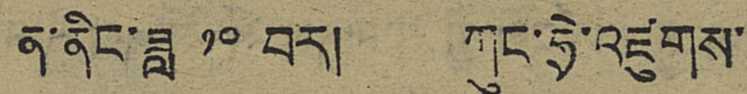ན་ནིང་ཟླ ༡༠ བར། ཀུང་ཧྲེ་འཛུགས་
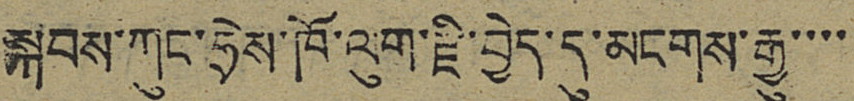སྐབས་ཀུང་ཧྲེས་ཁོ་ལུག་རྫི་བྱེད་དུ་མངགས་རྒྱུ་་་་་
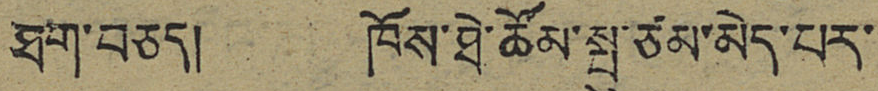ཐག་བཅད། ཁོས་ཐེ་ཚོམ་སྤུ་ཙམ་མེད་པར་
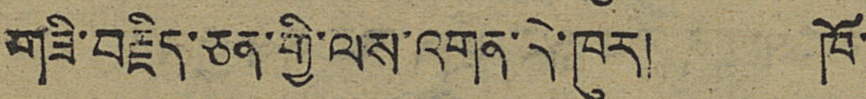གཟི་བརྗིད་ཅན་གྱི་ལས་འགན་དེ་ཁུར། ཁོ་
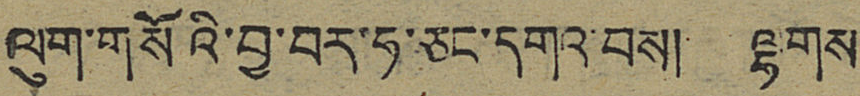ལུག་གསོའི་བྱ་བར་ཧ་ཅང་དགའ་བས། ལྷགས་
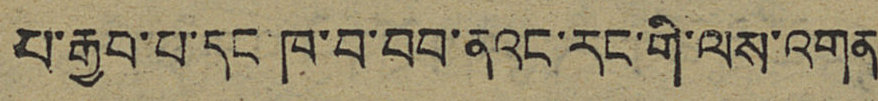པ་རྒྱབ་པ་དང་ཁ་བ་བབ་ནའང་རང་གི་ལས་འགན
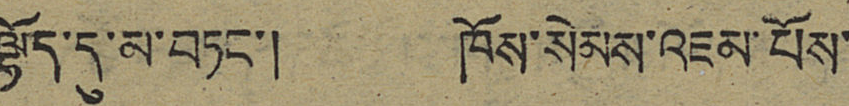ལྷོད་དུ་མ་བཏང་། ཁོས་སེམས་འཇམ་པོས་
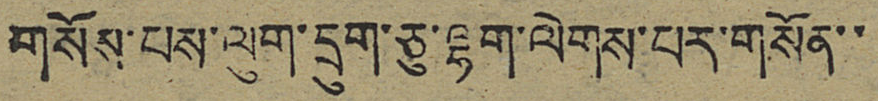གསོས་པས་ལུག་དྲུག་ཅུ་ལྷག་ལེགས་པར་གསོན་་
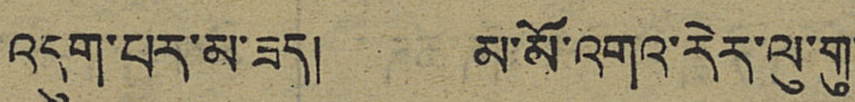འདུག་པར་མ་ཟད། མ་མོ་འགའ་རེར་ལུ་གུ་
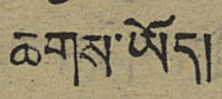ཆགས་ཡོད།
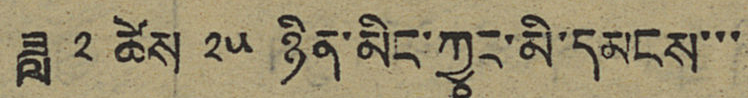ཟླ ༢ ཚེས ༢༥ ཉིན་མིང་ཀྱཱང་མི་དམངས་་་
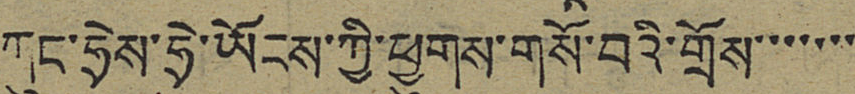ཀུང་ཧྲེས་ཧྲེ་ཡོངས་ཀྱི་ཕྱུགས་གསོ་བའི་གྲོས་་་་་་་
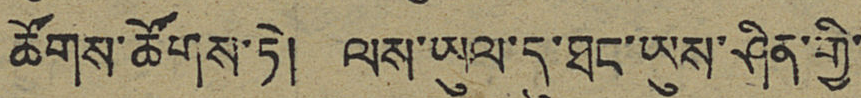ཚོགས་ཚོགས་ཏེ། ལས་ཡུལ་དུ་ཐང་ཡུས་ཤིན་གྱི་
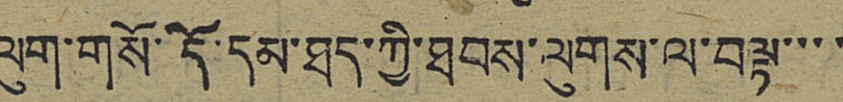ལུག་གསོ་དོ་དམ་ཐད་ཀྱི་ཐབས་ལུགས་ལ་བལྟ་་་་
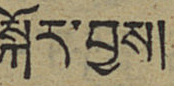སྐོར་བྱས།
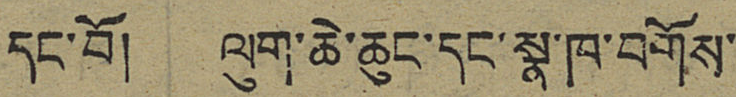དང་བོ། ལུག་ཆེ་ཆུང་དང་སྣ་ཁ་བགོས་
